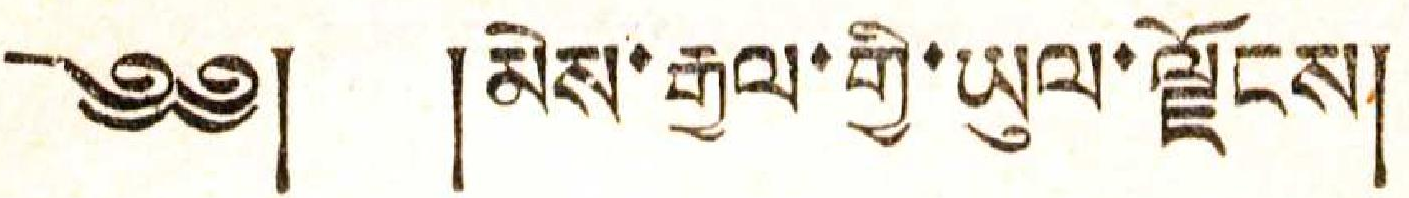༄༅། །མེས་རྒྱལ་གྱི་ཡུལ་ལྗོངས།
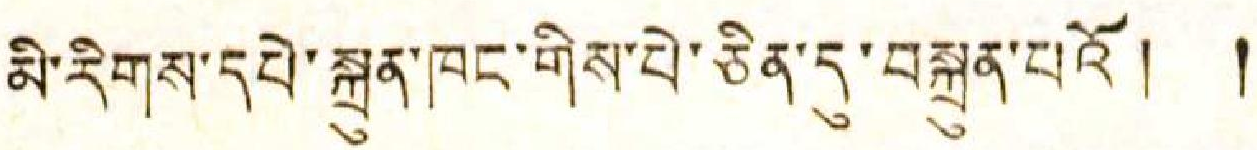མི་རིགས་དཔེ་སྐྲུན་ཁང་གིས་པེ་ཅིན་དུ་བསྐྲུན་པའོ། །
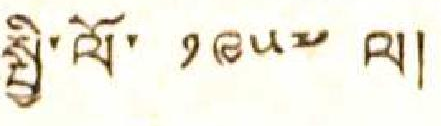སྤྱི་ལོ་ ༡༩༥༧ ལ།
